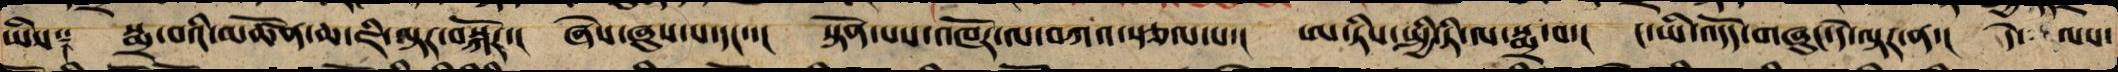ཡིས༑ སྨྲ་བའི་མཚོན་ཆ་ཇི་ལྟར་བསྐོར་། ཞེས་ཞུས་པ་དང་་། སྟོན་པས་འཁོར་ལ་བཀའ་སྩལ་པ་། ཨ་ཏིས་སྤྱི་ཏི་ལ་སྨྲ་བ་། ང་ཡི་འདོད་གཞུང་དེ་ལྟར་ན་། དེ་ ལས་
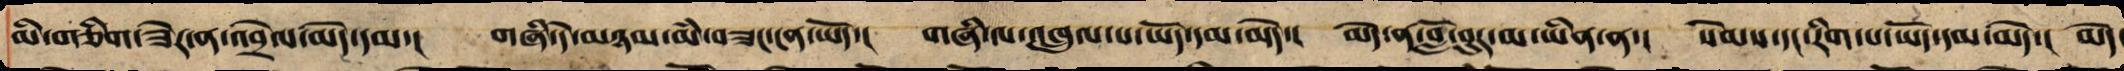མི་གཅིག་ཟེར་ན་འབྲེལ་མེད་དམ་། གཞི་དེ་མཉམ་མཾ་བཟང་ངན་ཡོད་། གཞི་ལ་འཁྲུལ་པ་ཡོད་དམ་མེད་། མེད་ན་བློ་བུར་མ་ཡིན་ན་། སེམས་དང་རིག་པ་ཡོད་དམ་མེད་། མེད་
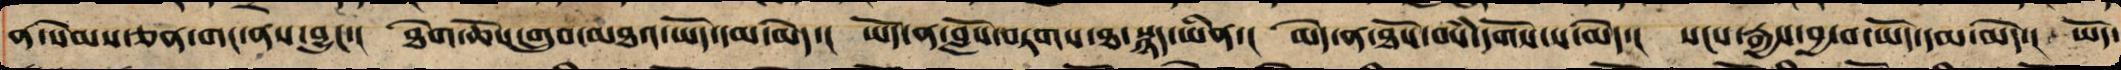ན་སེམས་ཅན་གང་ནས་བྱུང་། ཐེག་ཆོས་གྲུབ་མཐའ་ཡོད་དམ་མེད་། ཡོད་ན་བློས་བཏགས་ཐ་སྙད་ཡིན་། མེད་ན་ཐོས་བསཾ་དགོས་པ་མེད་། སངས་རྒྱས་བྱ་བ་ཡོད་དམ་མེད་། ཡོད་
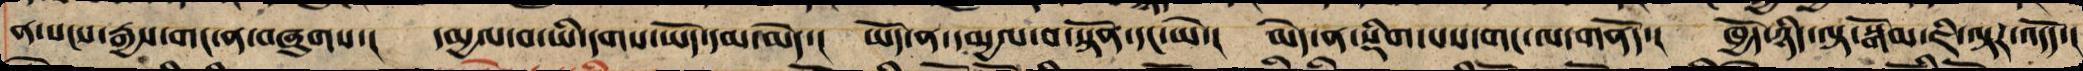ན་སངས་རྒྱས་གང་ན་བཞུགས་། དམྱལ་བ་ཡི་དགས་ཡོད་དམ་མེད་། ཡོད་ན་དམྱལ་བ་སྟོན་དང་ཡེ་། མེད་ན་སྡིག་པས་གང་ལ་གནོད་། ཁྱོད་ཉིད་ལྟ་སྒོམ་ཇི་ལྟར་འདོད་།
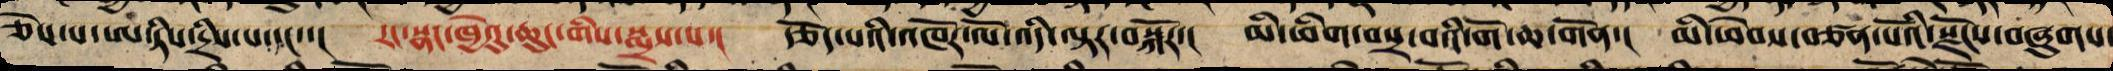ཅེས་པ་ཨ་ཏིས་དྲིས་པ་དང་་། རང་སྣང་ཁྱེའུ་ཆུང་གིས་སྨྲས་པ་། རྩོད་པའི་འཁོར་ལོ་འདི་ལྟར་བསྐོར་། མི་ཕིག་བསྲ་བའི་གོ་ཆ་གོན་། མི་ཕེབས་བཙན་པོའི་སྫོངས་བཞུགས་
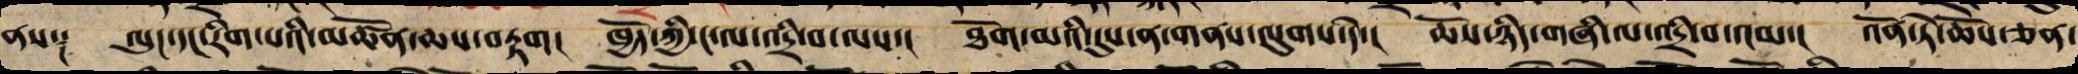ནས༑ ལུང་དང་རིགས་པའི་མཚོན་ཆས་བརྟག། ཁྱོད་ཀྱིས་ང་ལ་འདྲི་བ་ལས་། ཐོག་མའི་དུས་ན་གནས་ལུགས་དེ་། ཆོས་ཉིད་གཞི་ལ་འདྲི་བ་འམ་། འོན་ཏེ་ཆོས་ཅན་
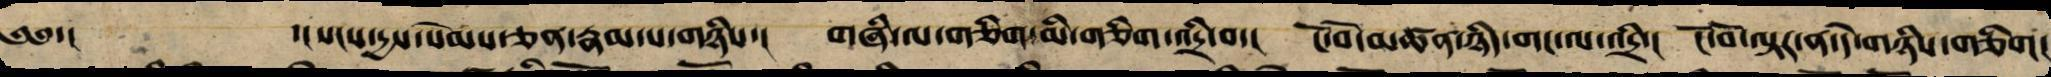༄༅་། ་། སངས་རྒྱས་སེམས་ཅན་རྣམ་པ་གཉིས་། གཞི་ལ་གཅིག་མི་གཅིག་འདྲི་བ་། ངོ་བོ་མཚན་ཉིད་གང་ལ་འདྲི་། ངོ་བོ་ལྟར་ན་དེ་གཉིས་གཅིག།
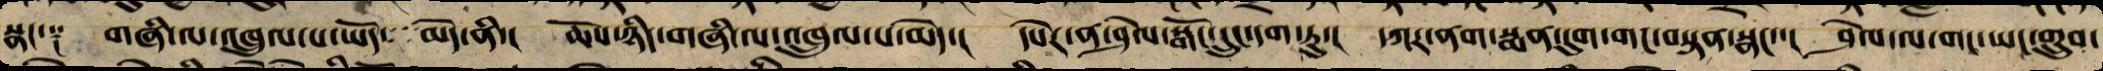སྣང་༑ གཞི་ལ་འཁྲུལ་པ་ཡོད་ མེད་ནི་། ཆོས་ཉིད་གཞི་ལ་འཁྲུལ་པ་མེད་། དཔེར་ན་ཤེལ་སྒོང་དྲུང་དག་ཏུ་། དཀར་ནག་སྨན་དུག་གང་བསྟན་སྣང་་། ཤེལ་ལ་གང་ཡང་གྲུབ་
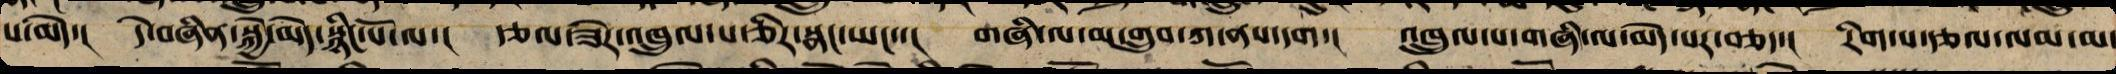པ་མེད་། དེ་བཞིན་སྐྱེ་མེད་སྙིང་པོ་ལ་། རྩལ་ཟེར་འཁྲུལ་པ་ཅིར་སྣང་ཡང་་། གཞི་ལ་མ་གྲུབ་ཀ་ནས་དག་། འཁྲུལ་པ་གཞི་ལ་མེད་པར་བཅད་། རིག་པ་རྩལ་ལམ་མ་
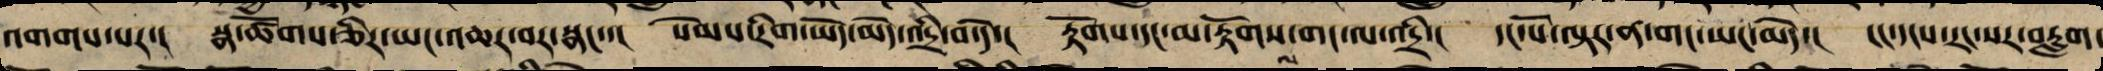འགགས་པར་། སྣ་ཚོགས་ཅིར་ཡང་འཆར་བར་སྣང་་། སེམས་རིག་ཡོད་མེད་འདྲི་བ་དེ་། རྟོགས་དང་མ་རྟོགས་གང་ལ་འདྲི་། དང་པོ་ལྟར་ན་གང་ཡང་མེད་། ངང་དངས་རང་སར་བརླག་
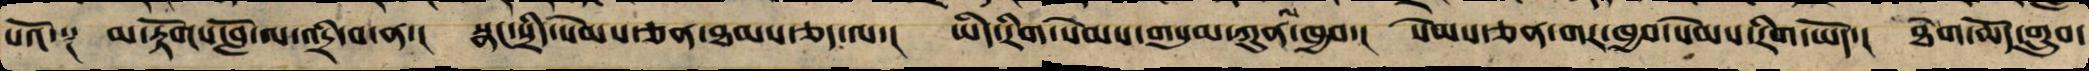པའོ་༑ མ་རྟོགས་བློ་ལ་འདྲི་བ་ན་། སྣང་སྲིད་སེམས་ཅན་ཐམས་ཅད་ལ་། ཡིད་རིག་སེམས་གསུམ་ཀུན་ལ་ཁྱབ་། སེམས་ཅན་གར་ཁྱབ་སེམས་རིག་ཡོད་། ཐེག་ཆོད་གྲུབ་
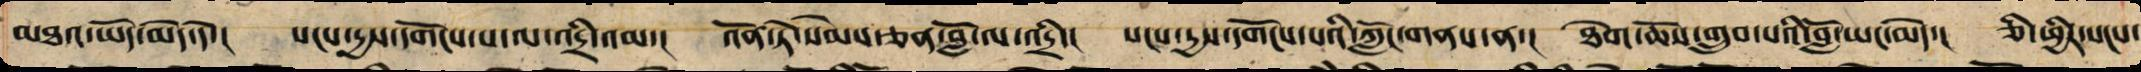མཐའ་ཡོད་མེད་དེ་། སངས་རྒྱས་དགོངས་པ་ལ་འདྲི་འམ་། འོན་ཏེ་སེམས་ཅན་བློ་ལ་འདྲི་། སངས་རྒྱས་དགོངས་པའི་ཀློང་གནས་ན་། ཐེག་ཆོས་གྲུབ་པའི་བློ་ཡང་མེད་། ཅི་ཕྱིར་སངས་
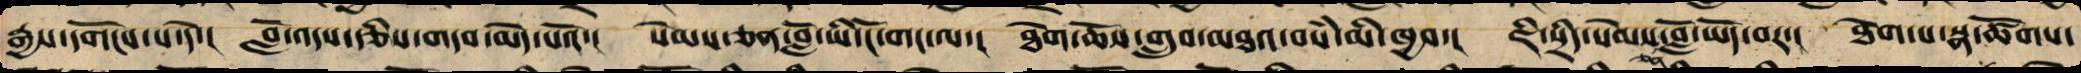རྒྱས་དགོངས་པ་དེ་། བློ་འདས་རྩིས་གདབ་མེད་པའོ་། སེམས་ཅན་བློ་ཡི་ངོ་གང་ལ་། ཐེག་ཆོས་གྲུབ་མཐའ་བསཾ་མི་ཁྱབ་། ཇི་སྲིད་སེམས་ཅན་བློ་ཡོད་པར་། ཐེག་པ་སྣ་ཚོགས་
